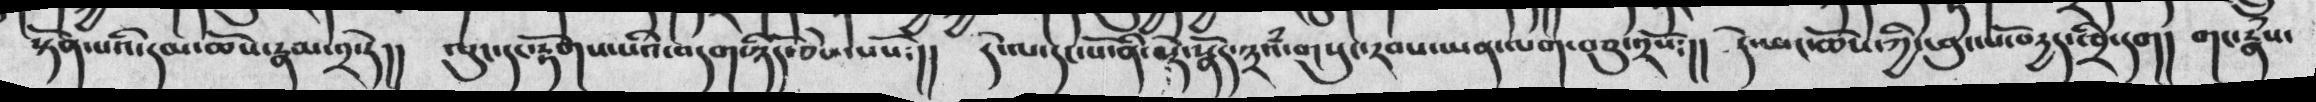སྟོན་པའི་དམ་ཆོས་རྣམ་༢་དེ།།  ལུང་དང་རྟོགས་པའི་བདག་ཉིད་ཅེས་པསོ༴།།  དེ་ལ་དང་པོ་ནི་སྡེ་སྣོད་༣འཾ་གསུང་རབས་ཡན་ལག་བཅུ་༢སོ་།།  དེ་ཡང་ཆོས་ཀྱི་ཕུང་པོ་བདྱད་ཁྲི་དག།  གང་རྣཾས་
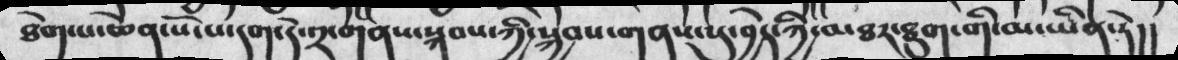ཐེག་པ་ཆེན་པོ་པ་དག་དེ་༢་གནས་སྐབས་ཀྱི་སྐྱབས་གནས་སུ་བྱེད་ཀྱི་མཐར་ཐུག་གི་མ་ཡིན་ཏེ།།
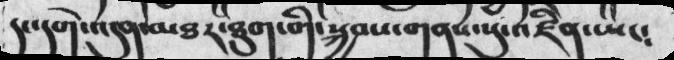དང་དགེ་འདུན་མཐར་ཐུག་གི་སྐྱབས་གནས་སུ་འཛིན་ཡང༴
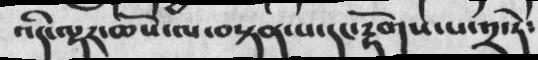འདི་ལྟར་ཆོས་ལ་བསྟན་པ་དང་རྟོགས་པ་༢་ཏེ༴
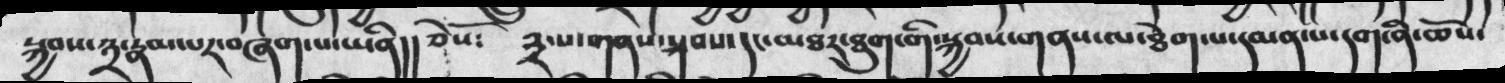སྐྱབས་༣་རྣམ་པར་བཞགས་པ་ཡིན།།  ཅེསོ༴  ༣་པ་གནས་སྐབས་དང་མཐར་ཐུག་གི་སྐྱབས་གནས་ལ་ཐེག་པ་དམན་པ་དག་ནི་ཆོས་
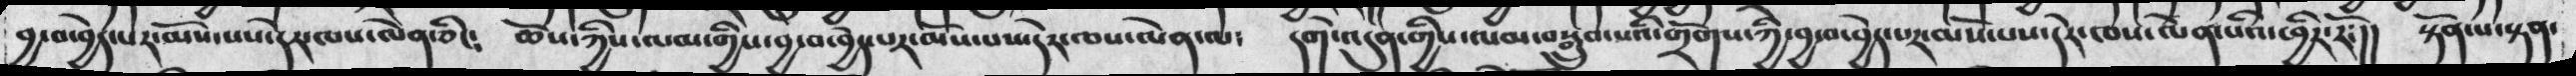བྱ་བ་བྱེད་པར་མོས་པས་དེར་ལས་ལེན་ཅིང༴  ཆོས་ཀྱིས་ལམ་གྱིས་བྱ་བ་བྱེད་པར་མོས་པས་དེར་ལས་ལེན་ལ༴  དགེ་འདུན་གྱིས་ལམ་བསྒྲུབ་པའི་གྲོགས་ཀྱི་བྱ་བ་བྱེད་པར་མོས་པས་དེར་ཁས་ལེན་པའི་ཕྱིར་རོ༴།།  སྟོན་པ་སྟན་
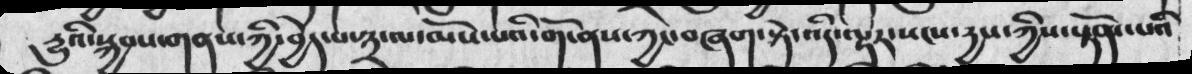རྱུའི་སྐྱབས་གནས་ཀྱི་བྱེད་པ་༣་ལ་མོས་པའི་གོ་ནས་ཀྱང་བཞང་སྟེ་འདི་ལྟར་སངས་དྱས་ཀྱིས་སྟོན་པའི
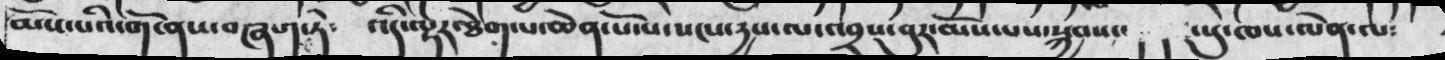མོས་པའི་གོ་ནས་བཞག་ཏེ༴  འདི་ལྟར་ཐེག་པ་ཆེན་པོ་པ་སངས་རྱས་ལ་འབྲས་བུར་མོས་པས་སྐྱབས་་  པུ་ཁས་ལེན་ལ༴
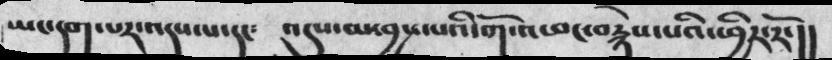ཡང་དག་པར་འདས་པ་དང༴  འདུས་མ་བྱས་པའི་གོ་འཕང་བརྙེས་པའི་ཕྱིར་རོ་།།
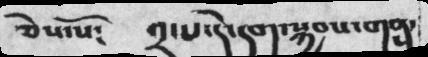ཅེས་སོ༴  ༢་པ་དེ་དག་སྐྱབས་གན་
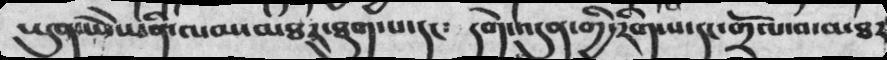ཡུན་ཡེེས་ནི་ལམ་མཐར་ཐུག་པ་དང༴  དགེ་འདུན་གྱི་རིག་པ་དང་གྲོལ་བ་མཐར
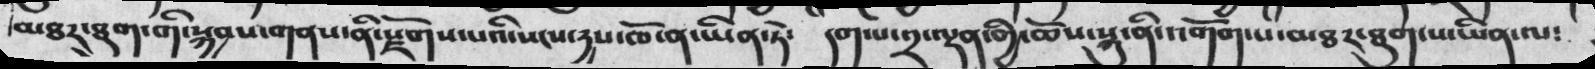མཐར་ཐུག་གི་སྐྱབས་གནས་ནི་རྫོགས་པའི་སངས་དྱས་ཁོ་ན་ཡིན་ཏེ༴  དག་པ་༢་ལྡན་གྱི་ཆོས་སྐུ་ནི་འགོག་པ་མཐར་ཐུག་པ་ཡིན་ལ༴
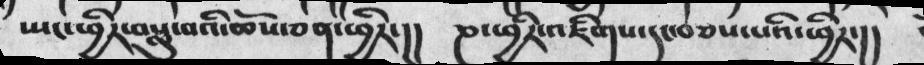ཡང་ཕྱིར་བསླུ་བའི་ཆོས་ཅན་ཕྱིར་།།  ཎ་ཕྱིར་འཇིགས་དང་བཅས་པའི་ཕྱིར་།།
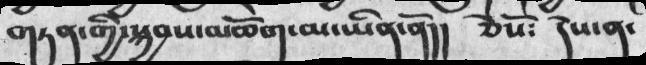གཏན་གྱི་སྐྱབས་མཆོག་མ་ཡིན་ནོ།།  ཅེསོ༴  དེས་ན་
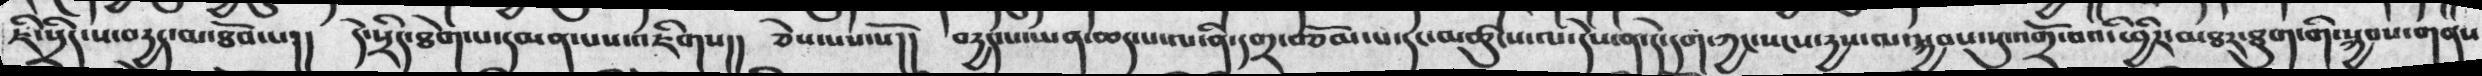ཇི་སྲིད་ས་བདྱད་མ་ཐོབ་པ།།  དེ་སྲིད་ཐེག་པ་དམན་པས་འཇིགས།།  ཅེས་པས་སོ།།  བདྱད་པ་ཡན་ཆད་པ་ལ་ནི་དགྲ་བཅོམ་པ་དང་མཚུངས་ལ་དེས་ན་དེ་དག་ཀྱང་སངས་དྱས་ལ་སྐྱབས་སུ་འགྲོ་བའི་ཕྱིར་མཐར་ཐུག་གི་སྐྱབས་གནས
